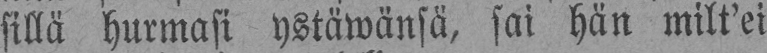sillä hurmasi ystäwänsä, sai hän milt'ei
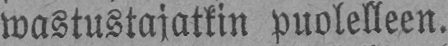wastustajatkin puolelleen.
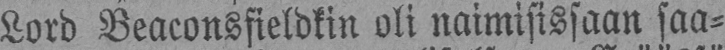Lord Beaconsfieldkin oli naimisissaan saa-
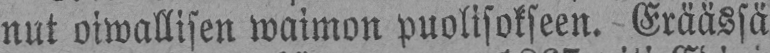nut oiwallisen waimon puolisokseen. Eräässä
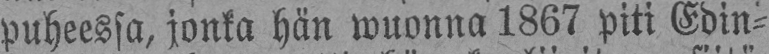puheessa, jonka hän wuonna 1867 piti Edin-
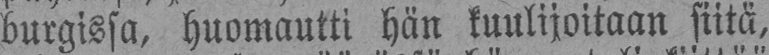burgissa, huomautti hän kuulijoitaan siitä,
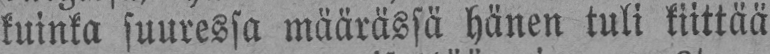kuinka suuressa määrässä hänen tuli kiittää
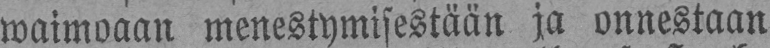waimoaan menestymisestään ja onnestaan
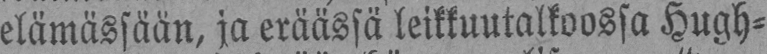elämässään, ja eräässä leikkuutalkoossa Hugh-
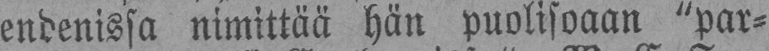endenissa nimittää hän puolisoaan "par-
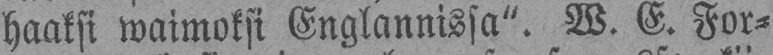haaksi waimoksi Englannissa". W. E. For-
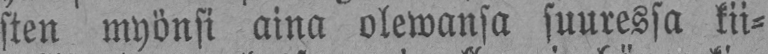sten myönsi aina olewansa suuressa kii-
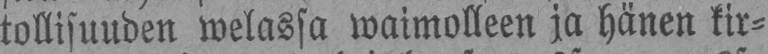tollisuuden welassa waimolleen ja hänen kir-
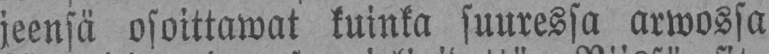jeensä osoittawat kuinka suuressa arwossa
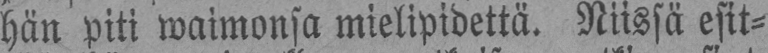hän piti waimonsa mielipidettä. Niissä esit-
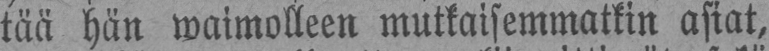tää hän waimolleen mutkaisemmatkin asiat,
